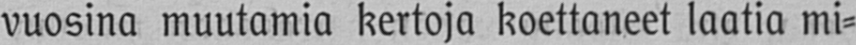vuosina muutamia kertoja koettaneet laatia mi-
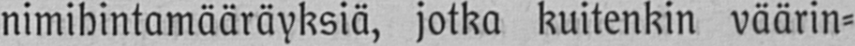nimihintamääräyksiä, jotka kuitenkin väärin-
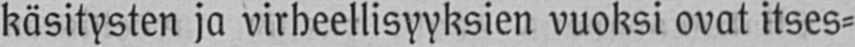käsitysten ja virheellisyyksien vuoksi ovat itses-
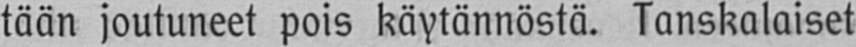tään joutuneet pois käytännöstä. Tanskalaiset
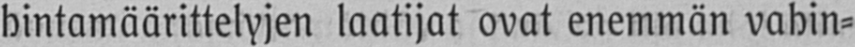hintamäärittelyjen laatijat ovat enemmän vahin-
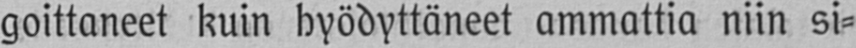goittaneet kuin hyödyttäneet ammattia niin si-
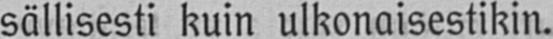sällisesti kuin ulkonaisestikin.
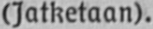(Jatketaan).
